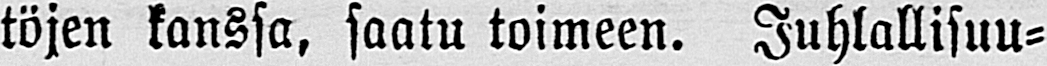töjen kanssa, saatu toimeen. Juhlallisuu-
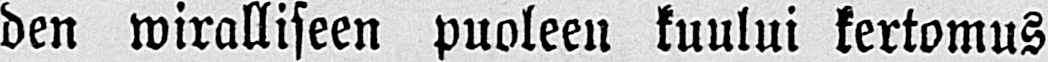den wiralliseen puoleen kuului kertomus
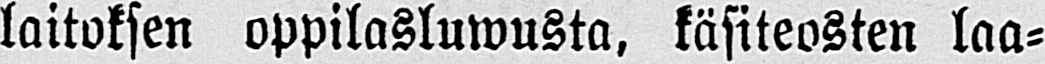laitoksen oppilasluwusta, käsiteosien laa-
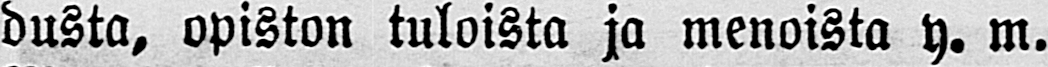dusta, opiston tuloista ja menoista y. m.
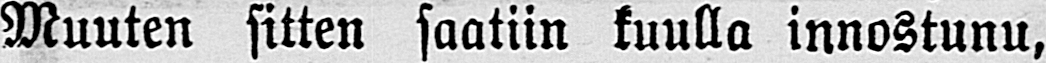Muuten sitten saatiin kuulla innostunu,
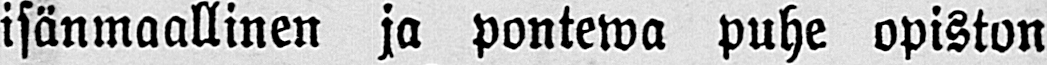isänmaallinen ja pontewa puhe opiston
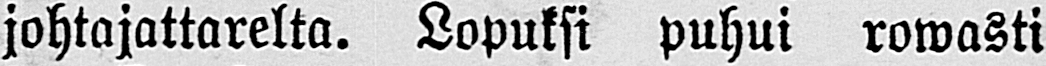johtajattarelta. Lopuksi puhui rowasti
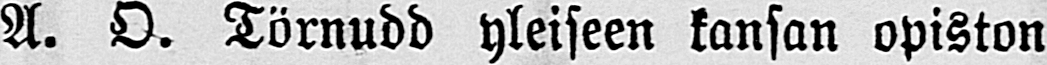A. O. Törnudd yleiseen kansan opiston
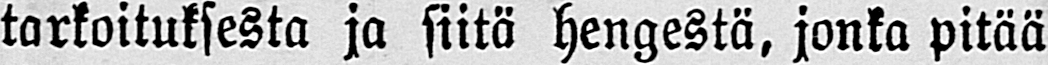tarkoituksesta ja siitä hengestä, jonka pitää
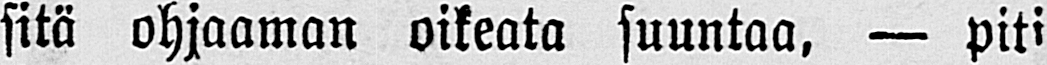sitä ohjaaman oikeata suuntaa, — piti
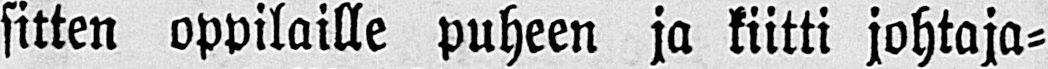sitten oppilaille puheen ja kiitti johtaja-
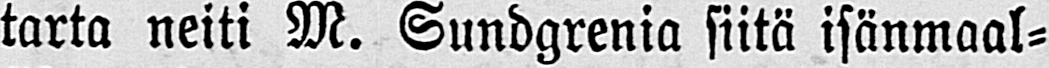tarta neiti M. Sundgrenia siitä isänmaal-
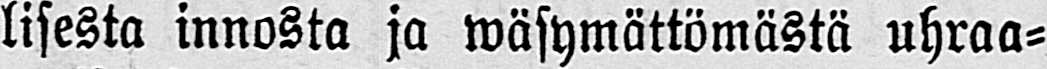lisesta innosta ja wäsymättömästä uhraa-
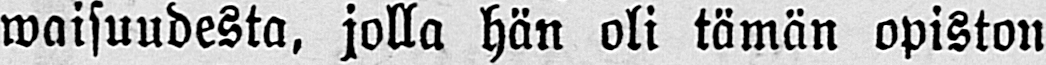waisuudesta, jolla hän oli tämän opiston
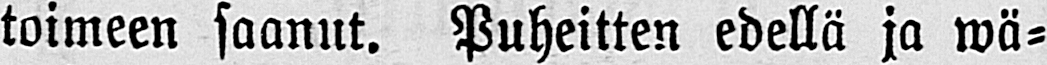toimeen saanut. Puheitten edellä ja wä-
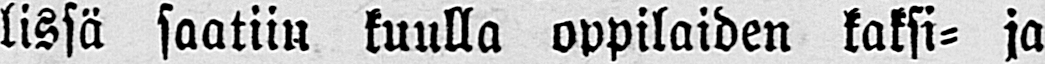lissä saatiin kuulla oppilaiden kaksi- ja
